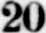20
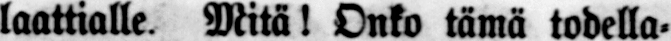laattialle. Mitä! Onko tämä todella-
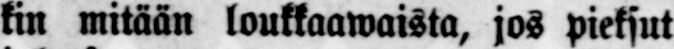kin mitään loukkaawaista, jos pieksut
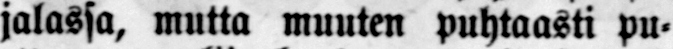jalassa, mutta muuten puhtaasti pu-
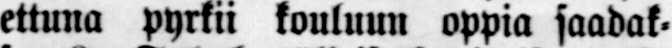ettuna pyrkii kouluun oppia saadak-
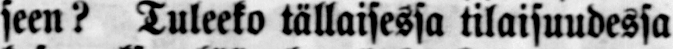seen? Tuleeko tällaisessa tilaisuudessa
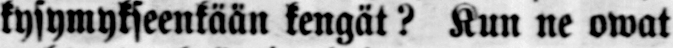kysymykseenkään kengät? Kun ne owat
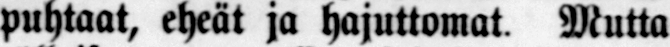puhtaat, eheät ja hajuttomat. Mutta
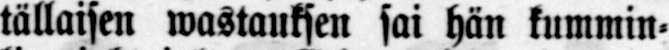tällaisen wastauksen sai hän kummin-
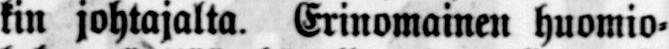kin johtajalta. Erinomainen huomio-
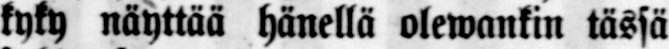kyky näyttää hänellä olewankin tässä
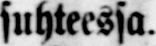suhteessa.
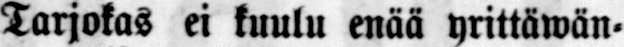Tarjokas ei kuulu enää yrittäwän-
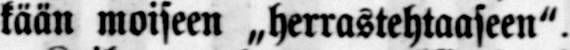kään moiseen „herrastehtaaseen".
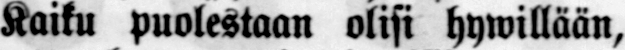Kaiku puolestaan olisi hywillään,
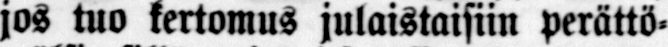jos tuo kertomus julaistaisiin perättö-
